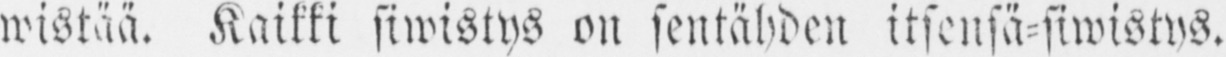wistää. Kaikki siwistys on sentähden itsensä-siwistys.
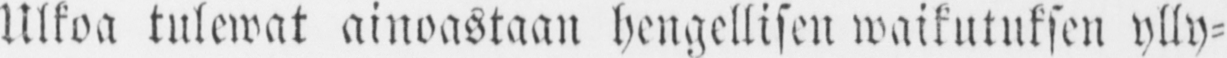Ulkoa tulewat ainoastaan hengellisen waikutuksen ylly-
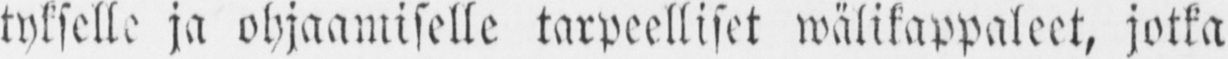tykselle ja ohjaamiselle tarpeelliset jotka
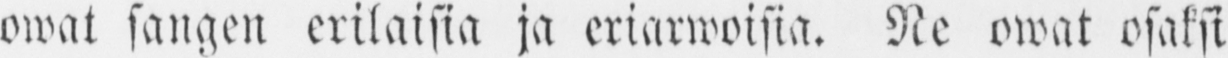owat sangen erilaisia ja eriarwoisia. Ne owat osaksi
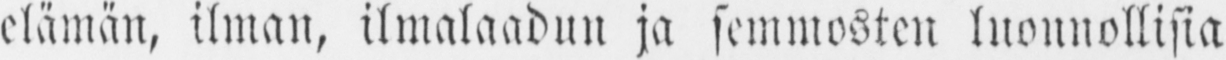elämän, ilman, ilmalaadun ja semmosten luonnollisia
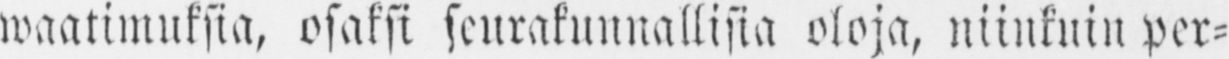waatimuksia, osaksi seurakunnallisia oloja, niinkuin per-
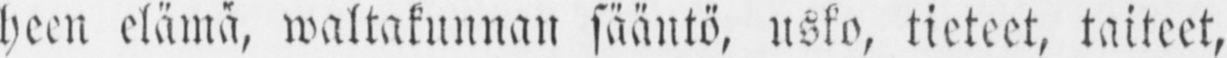heen elämä, waltakunnan sääntö, usko, tieteet, taiteet,
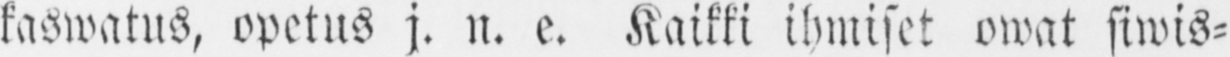kaswatus, opetus j. n. e. Kaikki ihmiset owat siwis-
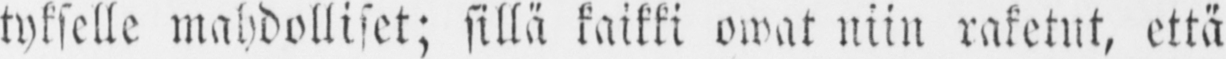tykselle mahdolliset; sillä kaikki owat niin raketut, että
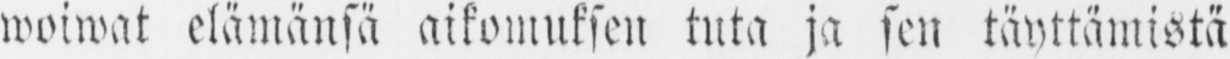woiwat elämänsä aikomuksen tuta ja sen täyttämistä
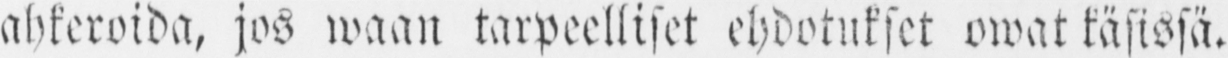ahkeroida, jos waan tarpeelliset ehdotukset owat käsissä.
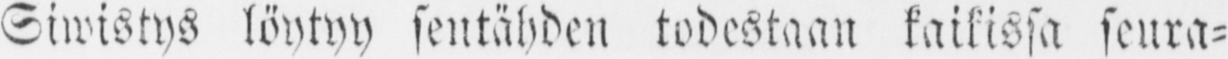Siwistys löytyy sentähden todestaan kaikissa seura-
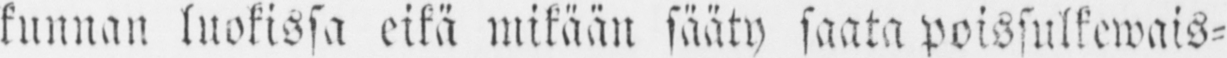kunnan luokissa eikä mikään sääty saata poissulkewais-
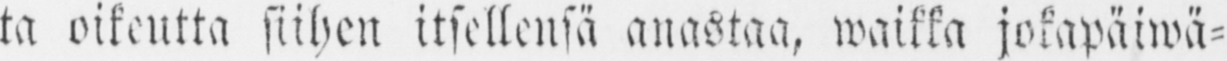ta oikeutta siihen itsellensä anastaa, waikka jokapäiwä-
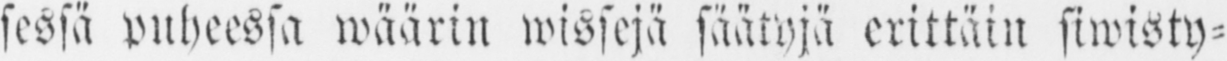sessä puheessa wäärin wissejä säätyjä erittäin siwisty-
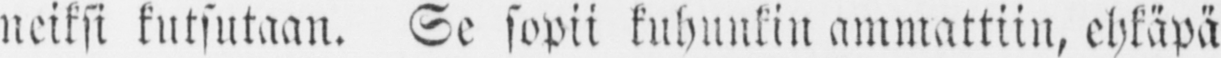neiksi kutsutaan. Se sopii kuhunkin ammattiin, ehkäpä
